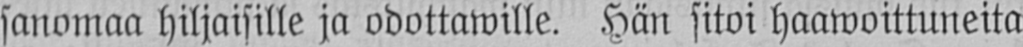sanomaa hiljaisille ja odottawille. Hän sitoi haawoittuneita
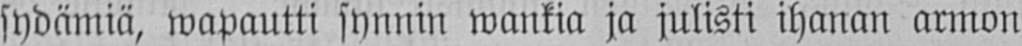sydämiä, wapautti synnin wankia ja julisti ihanan armon
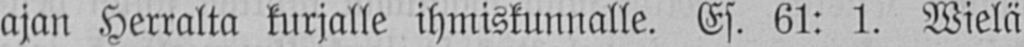ajan Herralta kurjalle ihmiskunnalle. Es. 61: 1. Wielä
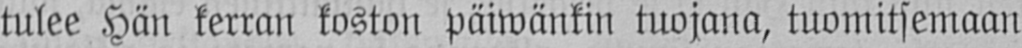tulee Hän kerran koston päiwänkin tuojana, tuomitsemaan
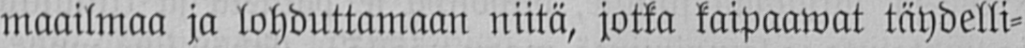maailmaa ja lohduttamaan niitä, jotka kaipaawat täydelli-
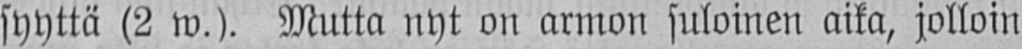syyttä (2 w.). Mutta nyt on armon suloinen aika, jolloin
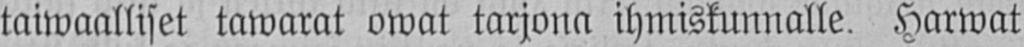taiwaalliset tawarat owat tarjona ihmiskunnalle. Harwat
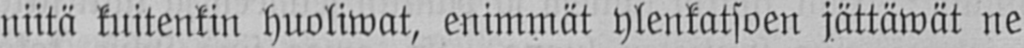niitä kuitenkin huoliwat, enimmät ylenkatsoen jättäwät ne
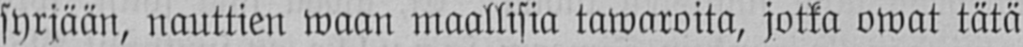syrjään, nauttien waan maallisia tawaroita, jotka owat tätä
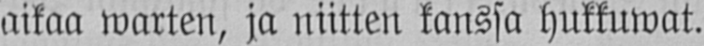aikaa warten, ja niitten kanssa hukkuwat.
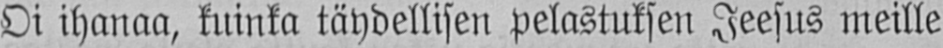Oi ihanaa, kuinka täydellisen pelastuksen Jeesus meille
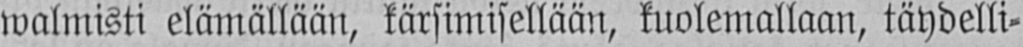walmisti elämällään, kärsimisellään, kuolemallaan, täydelli-
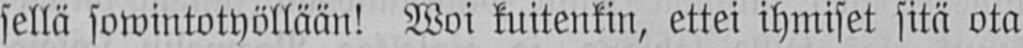sellä sowintotyöllään! Woi kuitenkin, ettei ihmiset sitä ota
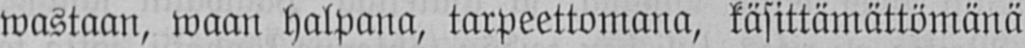wastaan, waan halpana, tarpeettomana, käsittämättömänä
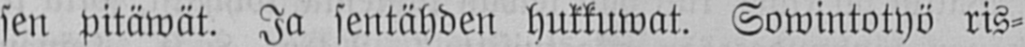sen pitäwät. Ja sentähden hukkuwat. Sowintotyö ris-
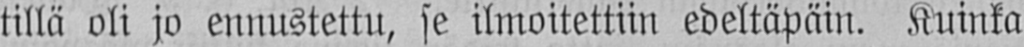tillä oli jo ennustettu, se ilmoitettiin edeltäpäin. Kuinka
